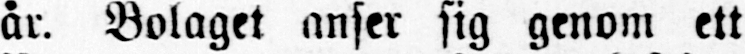år. Bolaget anser sig genom ett
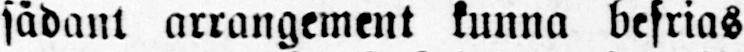sådant arrangement kunna befrias
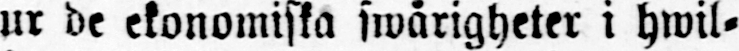ur de ekonomiska swårigheter i hwil-
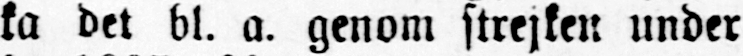ka det bl. a. genom strejken under
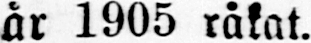år 1905 råkat.
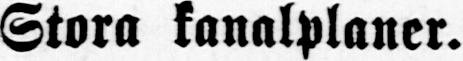Stora kanalplaner.
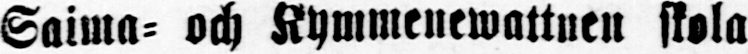Saima- och Kymmenewattnen skola
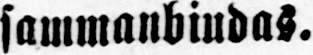sammanbindas.
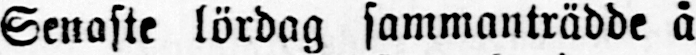Senaste lördag sammanträdde å
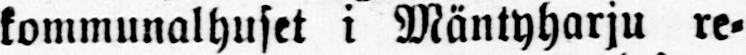kommunalhuset i Mäntyharju re-
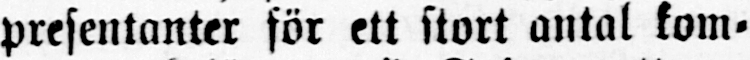presentanter för ett stort antal kom-
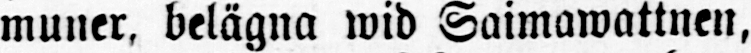muner, belägna wid Saimawattnen,
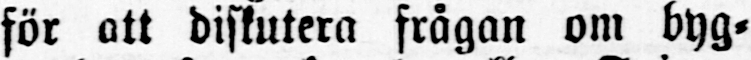för att diskutera frågan om byg-
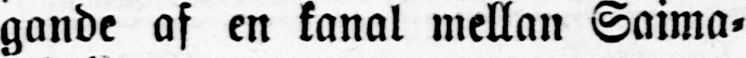gande af en kanal mellan Saima-
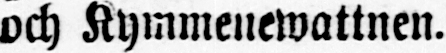och Kymmenewattnen.
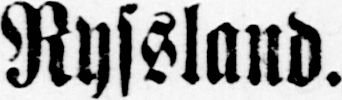Ryssland.
